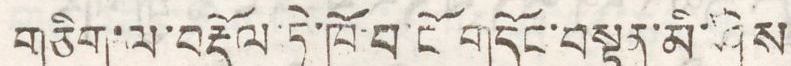གཅིག་ལ་བརྡོལ་ཏེ་ཁོ་བ་ངོ གདོང་བསྟན་མི་ཤེས
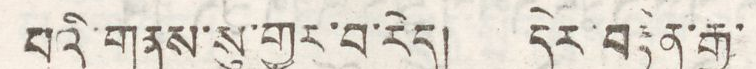པའི་གནས་སུ་གྱར་བ་རེད། དེར་བརྟེན་རྒྱ་
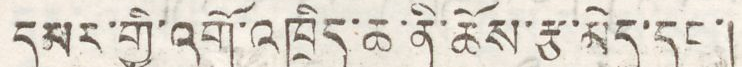དམར་གྱི་འགོ་འཁྲིད་ཆ་ནི་ཆོས་རྩ་མེད་དང་།
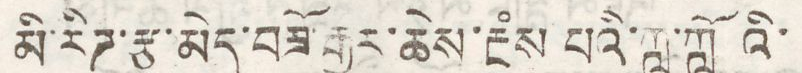མི་རིཌ་རྩ་མེད་བཟོ་རྒྱུར་ཆེས་རྔཾས པའི་ཀླ་ཀློའི་
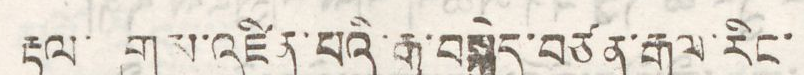རྟུལ་ཞུགས་འཛིན་པའི་རྒྱ་བསྐྱེད་བཙན་རྒྱལ་རིང་
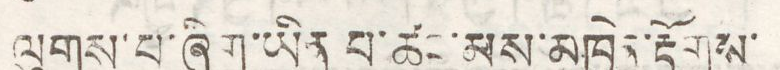ལུགས་པ་ཞིག་ཡིན པ་ཚང་མས་མཁྱེན་རྟོགས་
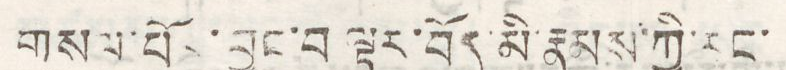གསལ་པོར་བྱུང་བ ལྟར་བོད་མི་རྣམས་ཀྱི་རང་
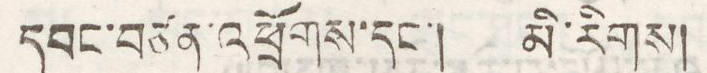དབང་བཙན་འཕྲོགས་དང་། མི་རིགས།
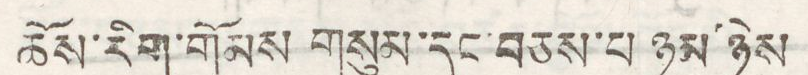ཆོས་རིག་གོམས གསུམ་དང་བཅས་པ ཉམ་ཉེས
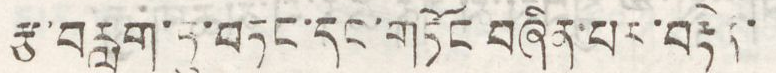རྩ་བརླག་ཏུ་བཏང་དང་གཏོང་བཞིན་པར་བརྟེན་
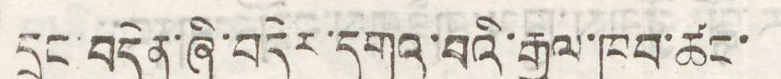དྲང་བདེན་ཞི་བདེར་དགའ་བའི་རྒྱལ་ཁབ་ཚང་
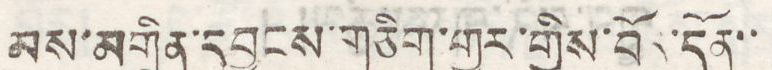མས་མགྲིན་དབྱངས་གཅིག་གྱུར་བོད་དོན་་
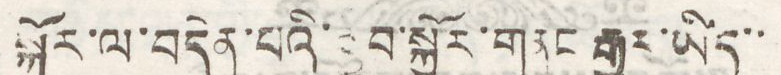སྐོར་ལ་བདེན་པའི་རྒྱབ་སྐྱོར་གནང་རྒྱུ་ཡིད་་
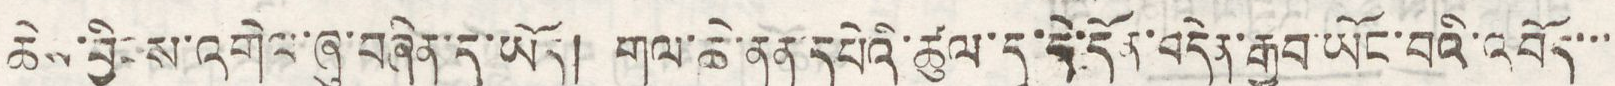ཆེས་བྱིངས་འགེལ་ཞུ་བཞིན་དུ་ཡོད། གལ་ཆེ་ནན་དཔེའི་ཚུལ་དུ་དེ་དོན་བདེན་རྒྱབ་ཡོང་བའི་འབོད་་་
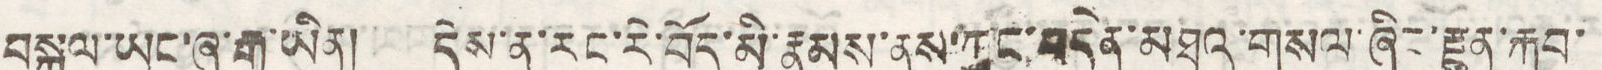བསྐུལ་ཡང་ཞུ་རྒྱུ་ཡིན། དེས་ན་རང་རེ་བོད་མི་རྣམས་ནས་ཀྱང་བདེན་མཐའ་གསལ་ཞིང་རྫུན་རྐུབ་
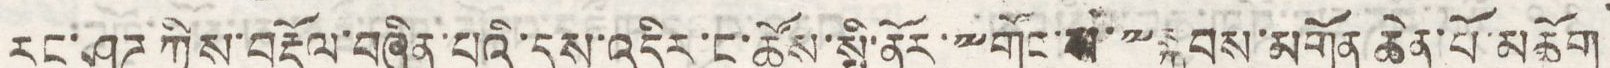རང་ཤུཌ་ཀྱིས་བརྡོལ་བཞིན་པའི་དུས་འདིར་ང་ཚོས་སྤྱི་ནོར་༸གོང་ས་༸སྐྱབས་མགོན་ཆེན་པོ་མཆོག
